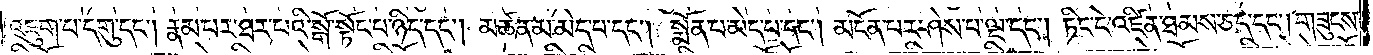འཇུག་པ་དགུ་དང༌། རྣམ་པར་ཐར་པའི་སྒོ་སྟོང་པ་ཉིད་དང༌། མཚན་མ་མེད་པ་དང༌། སྨོན་པ་མེད་པ་དང༌། མངོན་པར་ཤེས་པ་ལྔ་དང༌། ཏིང་ངེ་འཛིན་ཐམས་ཅད་དང༌། གཟུངས་
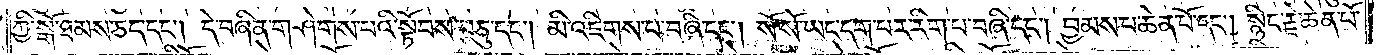ཀྱི་སྒོ་ཐམས་ཅད་དང༌། དེ་བཞིན་གཤེགས་པའི་སྟོབས་བཅུ་དང༌། མི་འཇིགས་པ་བཞི་དང༌། སོ་སོ་ཡང་དག་པར་རིག་པ་བཞི་དང༌། བྱམས་པ་ཆེན་པོ་དང༌། སྙིང་རྗེ་ཆེན་པོ་
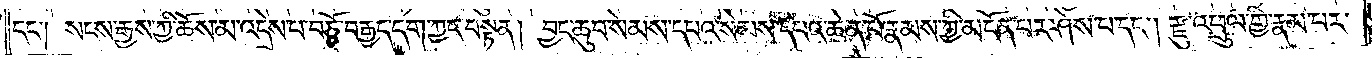དང༌། སངས་རྒྱས་ཀྱི་ཆོས་མ་འདྲེས་པ་བཅོ་བརྒྱད་དག་ཀྱང་བསྟན། བྱང་ཆུབ་སེམས་དཔའ་སེམས་དཔའ་ཆེན་པོ་རྣམས་ཀྱི་མངོན་པར་ཤེས་པ་དང༌། རྫུ་འཕྲུལ་གྱི་རྣམ་པར་
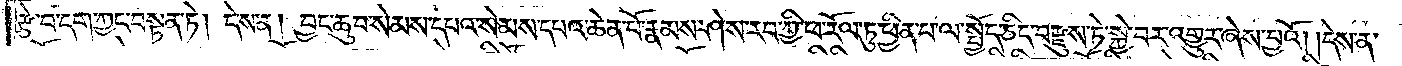རྩེ་བ་དག་ཀྱང་བསྟན་ཏེ། དེས་ན། བྱང་ཆུབ་སེམས་དཔའ་སེམས་དཔའ་ཆེན་པོ་རྣམས་ཤེས་རབ་ཀྱི་ཕ་རོལ་ཏུ་ཕྱིན་པ་ལ་སྤྱོད་ཅིང་བརྫུས་ཏེ་སྐྱེ་བར་འགྱུར་ཞེས་བྱའོ། །དེས་ན།
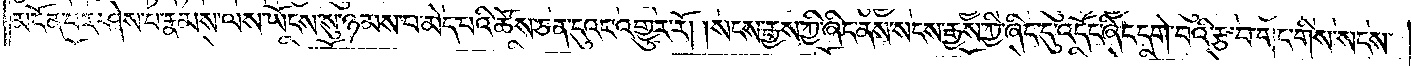མངོན་པར་ཤེས་པ་རྣམས་ལས་ཡོངས་སུ་ཉམས་པ་མེད་པའི་ཆོས་ཅན་དུའང་འགྱུར་རོ། །སངས་རྒྱས་ཀྱི་ཞིང་ནས་སངས་རྒྱས་ཀྱི་ཞིང་དུ་འདོང་ཞིང་དགེ་བའི་རྩ་བ་གང་གིས། སངས་
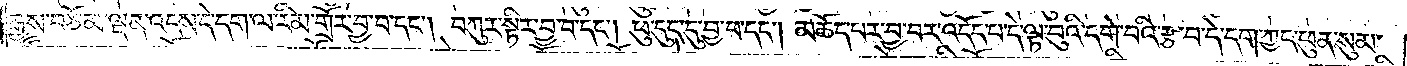རྒྱས་བཅོམ་ལྡན་འདས་དེ་དག་ལ་རིམ་གྲོར་བྱ་བ་དང༌། བཀུར་སྟིར་བྱ་བ་དང༌། ཕུ་དུང་དུ་བྱ་བ་དང༌། མཆོད་པར་བྱ་བར་འདོད་པ་དེ་ལྟ་བུའི་དགེ་བའི་རྩ་བ་དེ་དག་ཀྱང་ཕུན་སུམ་
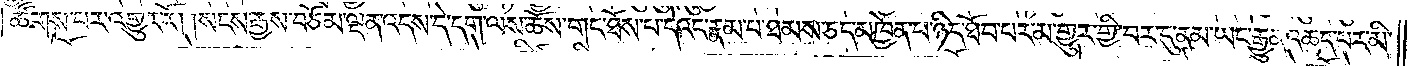ཚོགས་པར་འགྱུར་རོ། །སངས་རྒྱས་བཅོམ་ལྡན་འདས་དེ་དག་ལས་ཆོས་གང་ཟོས་པ་དེའང་རྣམ་པ་ཐམས་ཅད་མཁྱེན་པ་ཉིད་ཐོབ་པར་མ་གྱུར་གྱི་བར་དུ་ནམ་ཡང་རྒྱུན་ཆད་པར་མི་
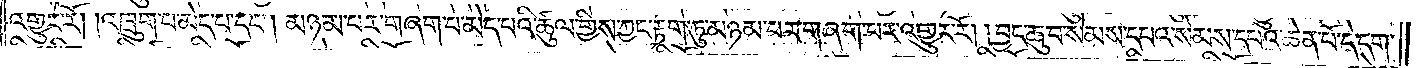འགྱུར་རོ། །འཁྲུག་བ་མེད་པ་དང༌། མཉམ་པར་གཞག་པ་མེད་པའི་ཚུལ་གྱིས་ཀྱང་རྟག་ཏུ་མཉམ་པར་གཞག་པར་འགྱུར་རོ། །བྱང་ཆུབ་སེམས་དཔའ་སེམས་དཔའ་ཆེན་པོ་དེ་དག་
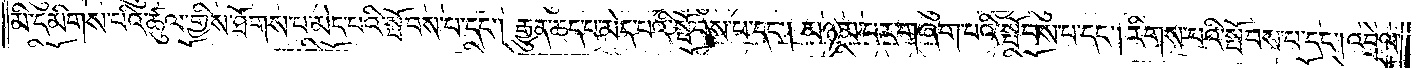མི་དམིགས་པའི་ཚུལ་གྱིས་ཐོགས་པ་མེད་པའི་སྤོབས་པ་དང༌། རྒྱུན་ཆད་པ་མེད་པའི་སྤོབས་པ་དང༌། མཉམ་པར་གཞག་པའི་སྤོབས་པ་དང༌། རིགས་པའི་སྤོབས་པ་དང༌། འབྲེལ་
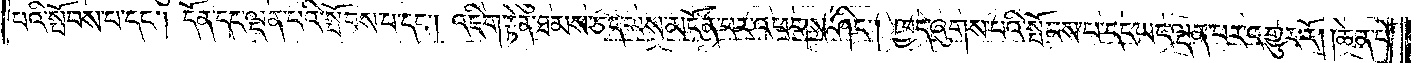པའི་སྤོབས་པ་དང༌། དོན་དང་ལྡན་པའི་སྤོབས་པ་དང༌། འཇིག་རྟེན་ཐམས་ཅད་ལས་མངོན་པར་འཕགས་ཤིང༌། ཁྱད་ཞུགས་པའི་སྤོབས་པ་དང་ཡང་ལྡན་པར་འགྱུར་རོ། །ཆེན་པོ་
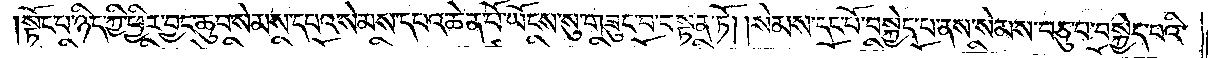སྟོང་པ་ཉིད་ཀྱི་ཕྱིར་བྱང་ཆུབ་སེམས་དཔའ་སེམས་དཔའ་ཆེན་པོ་ཡོངས་སུ་བཟུང་བ་བསྟན་ཏོ། །སེམས་དང་པོ་བསྐྱེད་པ་ནས་སེམས་བཅུ་པ་བསྐྱེད་པའི་
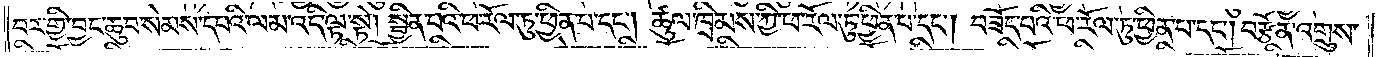བར་གྱི་བྱང་ཆུབ་སེམས་དཔའི་ལམ་འདི་ལྟ་སྟེ། སྦྱིན་པའི་ཕ་རོལ་ཏུ་ཕྱིན་པ་དང༌། ཚུལ་ཁྲིམས་ཀྱི་ཕ་རོལ་ཏུ་ཕྱིན་པ་དང༌། བཟོད་པའི་ཕ་རོལ་ཏུ་ཕྱིན་པ་དང༌། བརྩོན་འགྲུས་
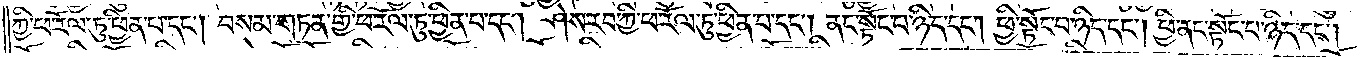ཀྱི་ཕ་རོལ་ཏུ་ཕྱིན་པ་དང༌། བསམ་གཏན་གྱི་ཕ་རོལ་ཏུ་ཕྱིན་པ་དང༌། ཤེས་རབ་ཀྱི་ཕ་རོལ་ཏུ་ཕྱིན་པ་དང༌། ནང་སྟོང་པ་ཉིད་དང༌། ཕྱི་སྟོང་པ་ཉིད་དང༌། ཕྱི་ནང་སྟོང་པ་ཉིད་དང༌།
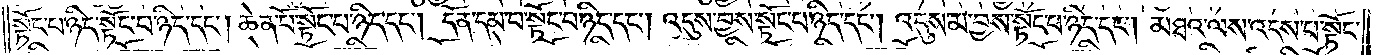སྟོང་པ་ཉིད་སྟོང་པ་ཉིད་དང༌། ཆེན་པོ་སྟོང་པ་ཉིད་དང༌། དོན་དམ་པ་སྟོང་པ་ཉིད་དང༌། འདུས་བྱས་སྟོང་པ་ཉིད་དང༌། འདུས་མ་བྱས་སྟོང་པ་ཉིད་དང༌། མཐའ་ལས་འདས་པ་སྟོང་
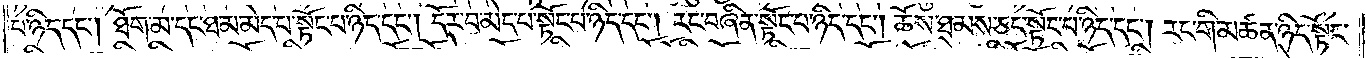པ་ཉིད་དང༌། ཐོག་མ་དང་ཐ་མ་མེད་པ་སྟོང་པ་ཉིད་དང༌། དོར་བ་མེད་པ་སྟོང་པ་ཉིད་དང༌། རང་བཞིན་སྟོང་པ་ཉིད་དང༌། ཆོས་ཐམས་ཅད་སྟོང་པ་ཉིད་དང༌། རང་གི་མཚན་ཉིད་སྟོང་
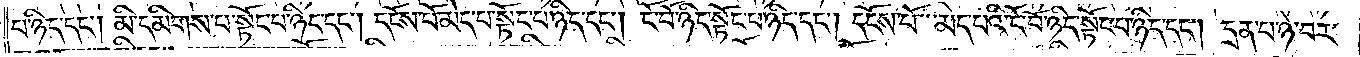པ་ཉིད་དང༌། མི་དམིགས་པ་སྟོང་པ་ཉིད་དང༌། དངོས་པོ་མེད་པ་སྟོང་པ་ཉིད་དང༌། ངོ་བོ་ཉིད་སྟོང་པ་ཉིད་དང༌། །དངོས་པོ་མེད་པའི་ངོ་བོ་ཉིད་སྟོང་པ་ཉིད་དང༌། དྲན་པ་ཉེ་བར་
